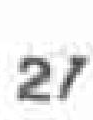21
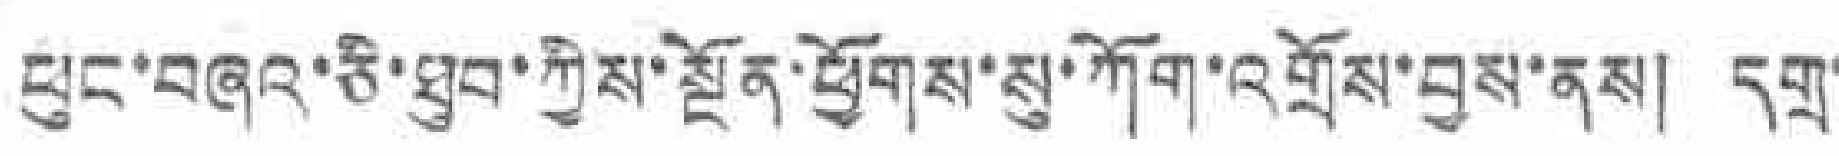ཕུང་བཞའ་ཅི་ཐུབ་ཀྱིས་སྔོན་ཕྱོགས་སུ་ཀོག་འགྲོས་བྱས་ནས། དགྲ་
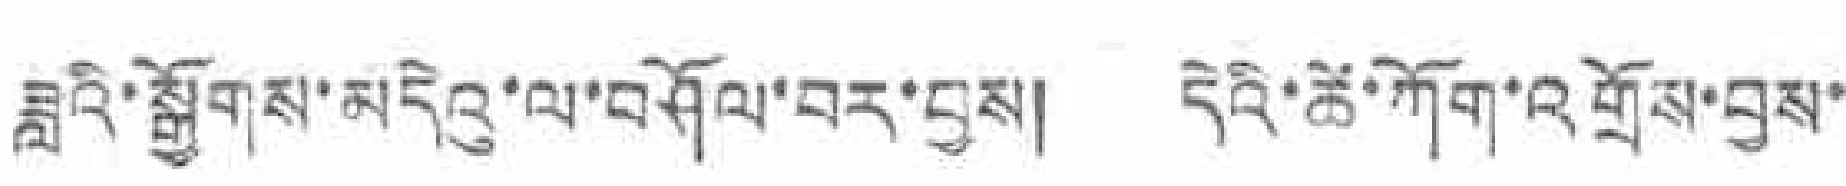ཟླའི་སྒྱོགས་མདེའུ་ལ་བཤོལ་བར་བྱས། དེའི་ཚེ་ཀོག་འགྲོས་བྱས་
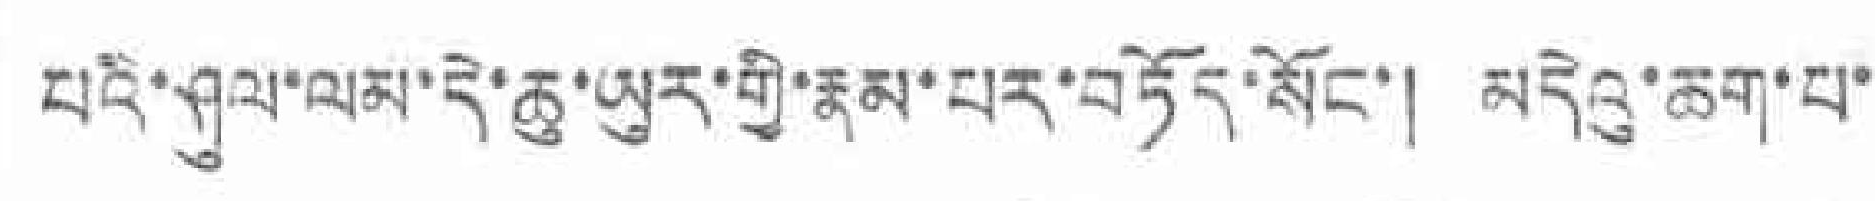པའི་ཤུལ་ལམ་དེ་ཆུ་ཡུར་གྱི་རྣམ་པར་བཏོད་སོང་། མདེའུ་ཆག་པ་
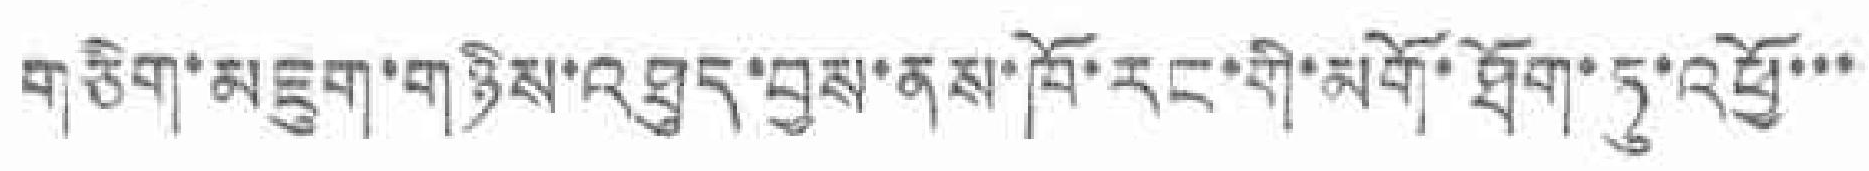གཅིག་མཇུག་གཉིས་འཐུད་བྱས་ནས་ཁོ་རང་གི་མགོ་ཐོག་ཏུ་འཕྱོ་་་
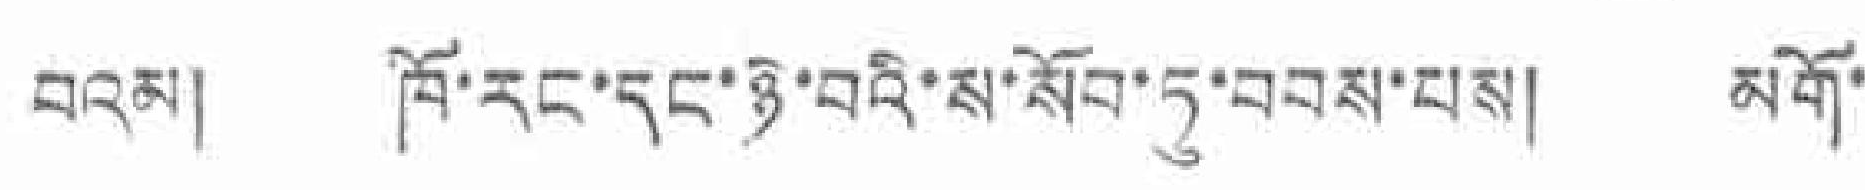བའམ། ཁོ་རང་དང་ཉེ་བའི་ས་སོབ་ཏུ་བབས་པས། མགོ་
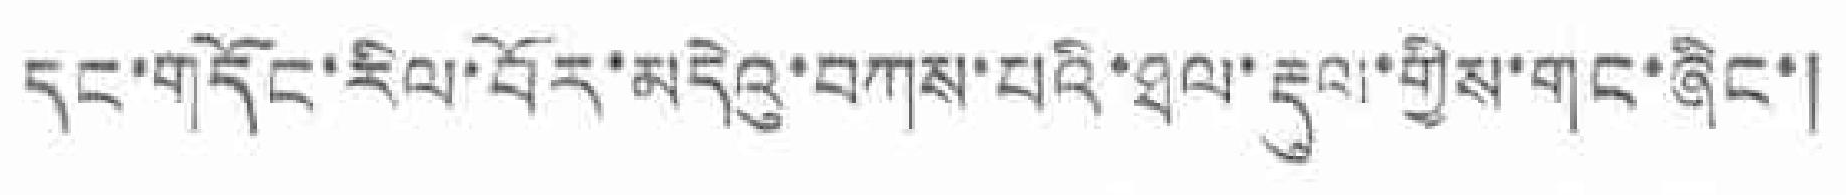དང་གདོང་རིལ་བོར་མདེའུ་བཀས་པའི་ཐལ་རྡུལ་གྱིས་གང་ཞིང་།
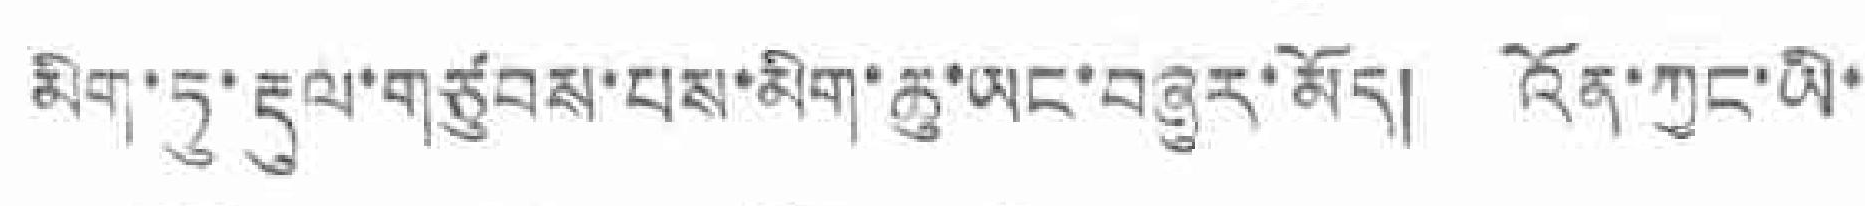མིག་ཏུ་རྡུལ་གཙུབས་པས་མིག་ཆུ་ཡང་བཞུར་མོད། འོན་ཀྱང་ཡི་
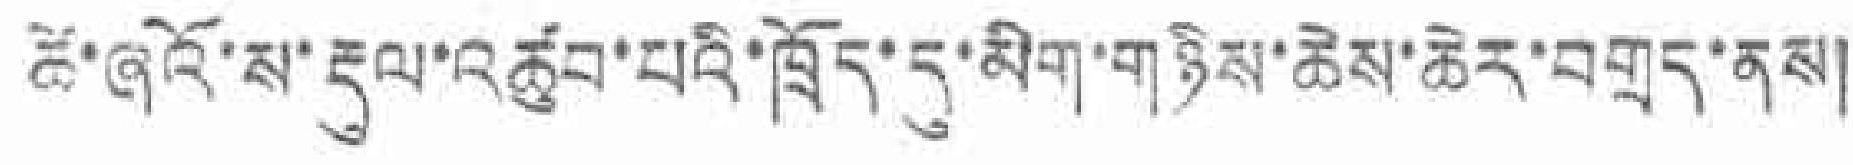ཚེ་ཞའོ་ས་རྡུལ་འཚུབ་པའི་ཁྲོད་དུ་མིག་གཉིས་ཆེས་ཆེར་བགྲད་ནས།
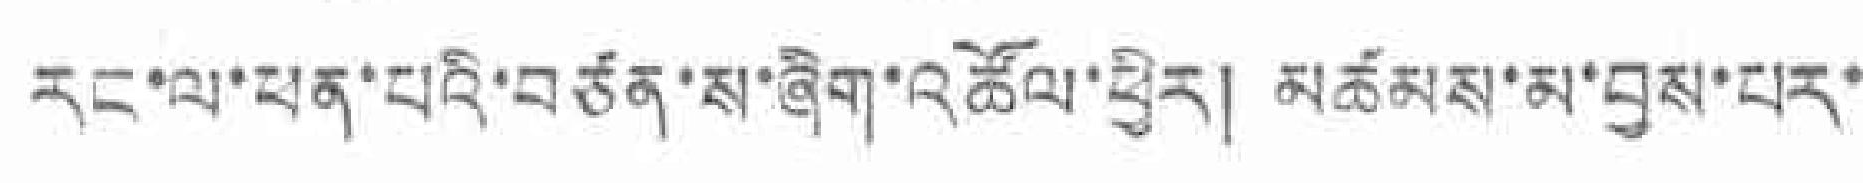རང་ལ་ཕན་པའི་བཙན་ས་ཞིག་འཚོལ་ཕྱིར། མཚམས་མ་བྱས་པར་
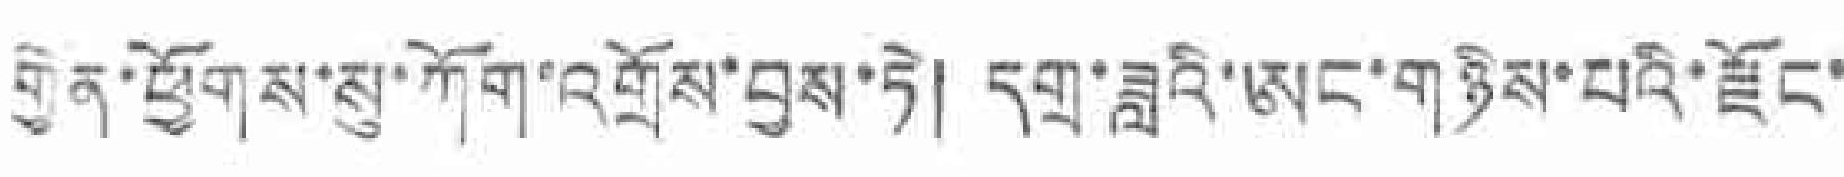གྱེན་ཕྱོགས་སུ་ཀོག་འགྲོས་བྱས་ཏེ། དགྲ་ཟླའི་ཨང་གཉིས་པའི་རྫོང་
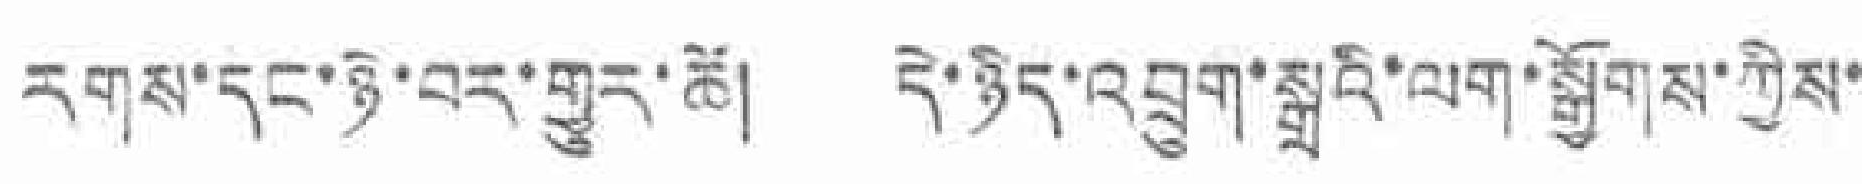རགས་དང་ཉེ་བར་གྱུར་ཚེ། དེ་ཉིད་འབྲུག་སྒྲའི་ལག་སྒྱོགས་ཀྱིས་
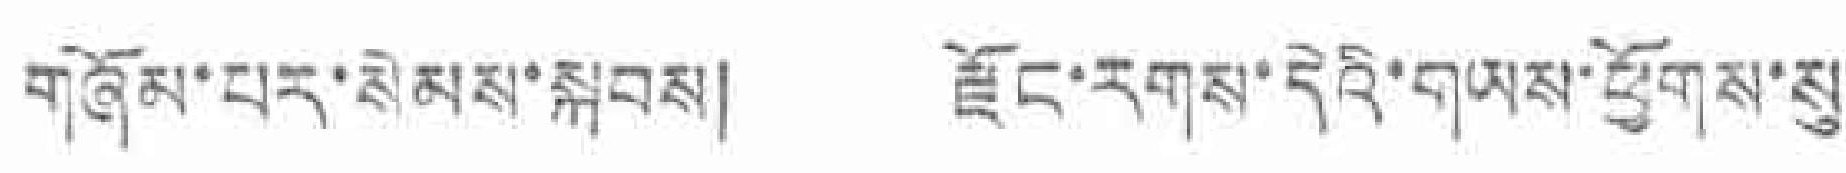གཞོམ་པར་སེམས་སྐབས། རྫོང་རགས་དེའི་གཡས་ཕྱོགས་སུ་
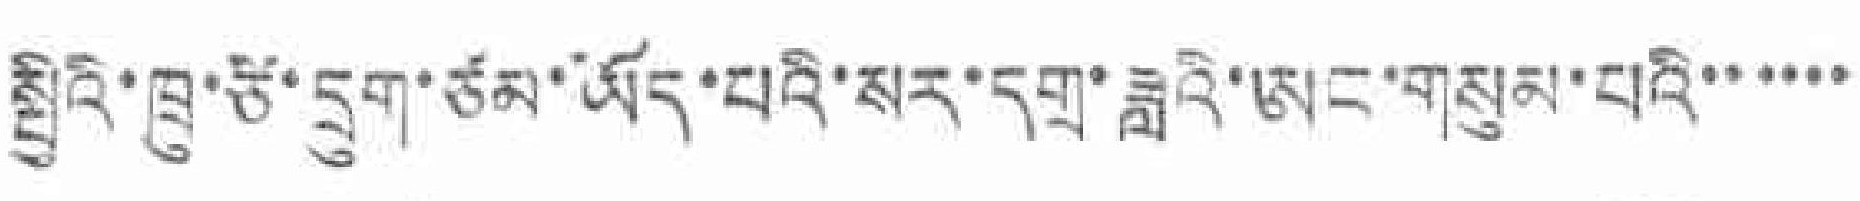སྤྱིའི་ཁྲུ་ཙི་དྲུག་ཙམ་ཡོད་པའི་སར་དགྲ་ཟླའི་ཨང་གསུམ་པའི་་་་་་
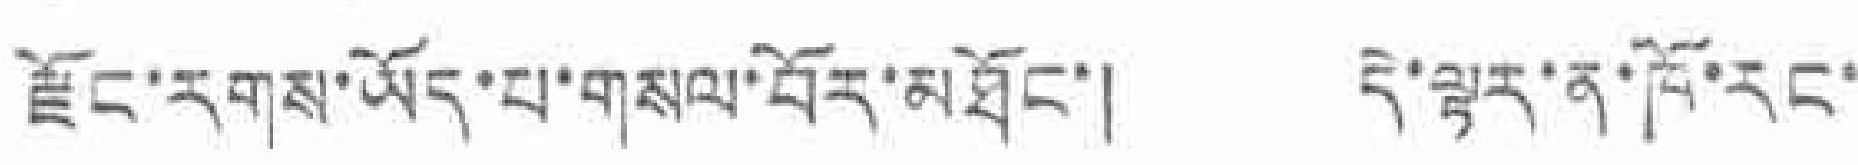རྫོང་རགས་ཡོད་པ་གསལ་བོར་མཐོང་། དེ་ལྟར་ན་ཁོ་རང་
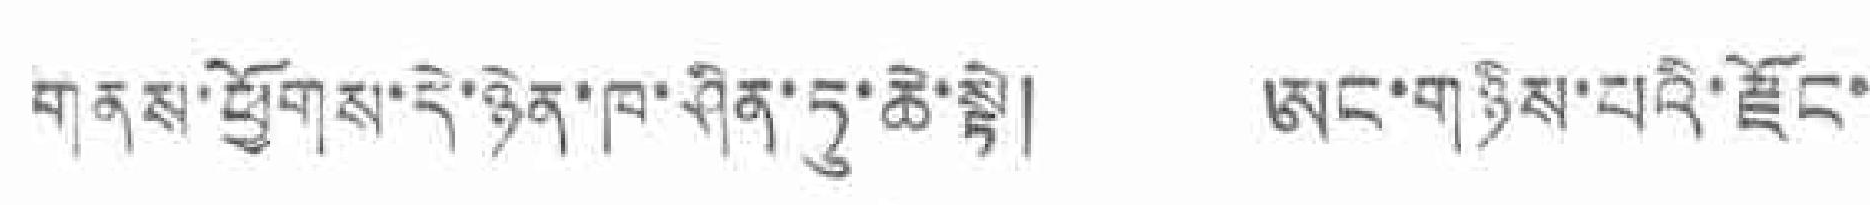གནས་ཕྱོགས་དེ་ཉེན་ཁ་ཤིན་ཏུ་ཆེ་སྟེ། ཨང་གཉིས་པའི་རྫོང་
